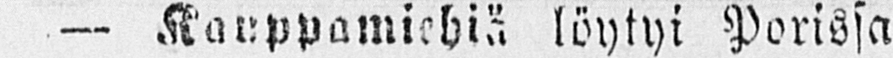— Kauppamiehiä löytyi Porissa
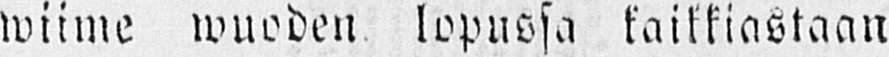wiime wuoden lopussa kaikkiastaan
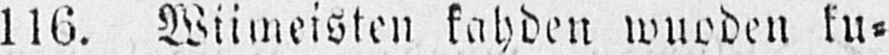116. Wiimeisten kahden wuoden ku-
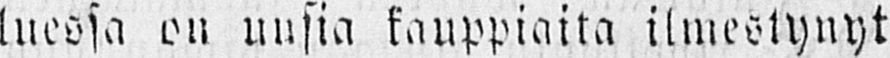luessa on uusia kauppiaita ilmestynyt
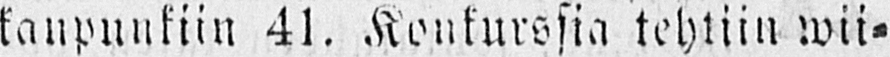kaupunkiin 41. Konkurssia tehtiin wii-
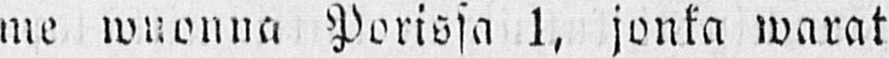me wuonna Porissa 1, jonka warat
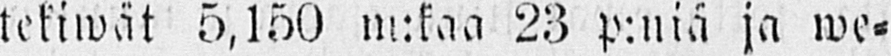tekiwät 5,150 m:kaa 23 p:niä ja we-
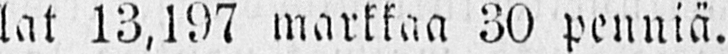lat 13,197 markkaa 30 penniä.
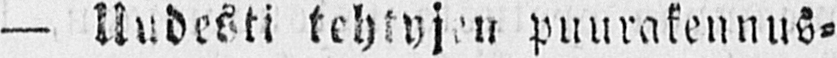— Uudesti tehtyjen puurakennus-
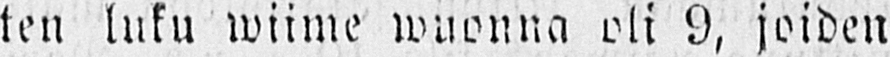ten luku wiime wuonna oli 9, joiden
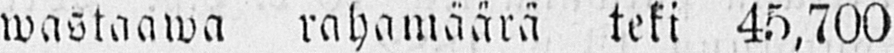wastaawa rahamäärä teki 45,700
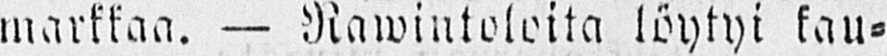markkaa. — Rawintoloita löytyi kau-
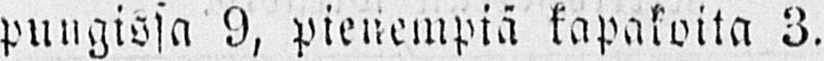pungissa 9, pienempiä kapakoita 3.
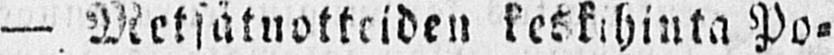— Metsätuotteiden keskihinta Po-
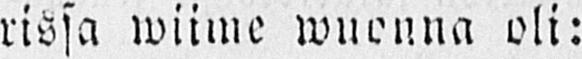rissa wiime wuonna oli:
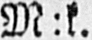M:k.
